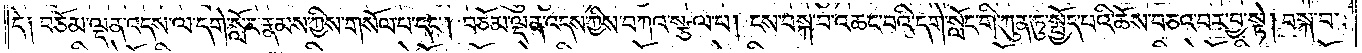དེ༑ བཅོམ་ལྡན་འདས་ལ་དགེ་སློང་རྣམས་ཀྱིས་གསོལ་པ་དང༌། བཅོམ་ལྡན་འདས་ཀྱིས་བཀའ་སྩལ་པ། ངས་བསྐ་བ་འཆང་བའི་དགེ་སློང་གི་ཀུན་ཏུ་སྤྱོད་པའི་ཆོས་བཅའ་བར་བྱ་སྟེ། བསྐ་བ་
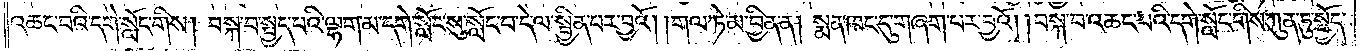འཆང་བའི་དགེ་སློང་གིས། བསྐ་བ་སྤྱད་པའི་ལྷག་མ་དགེ་སློང་སུ་སློང་བ་དེ་ལ་སྦྱིན་པར་བྱའོ། །གལ་ཏེ་མ་བྱིན་ན། སྨན་ཁང་དུ་གཞག་པར་བྱའོ། །བསྐ་བ་འཆང་བའི་དགེ་སློང་གིས་ཀུན་ཏུ་སྤྱོད་
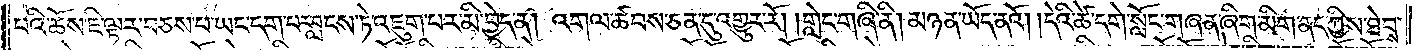པའི་ཆོས་ཇི་ལྟར་བཅས་པ་ཡང་དག་པར་བླངས་ཏེ་འཇུག་པར་མི་བྱེད་ན། འགལ་ཚབས་ཅན་དུ་འགྱུར་རོ། །གླེང་གཞི་ནི། མཉན་ཡོད་ནའོ། །དེའི་ཚེ་དགེ་སློང་གཞན་ཞིག་མིག་ནད་ཀྱིས་ཐེབས་
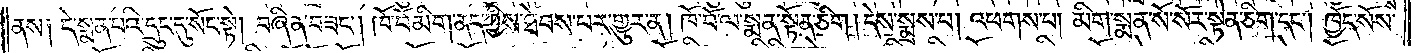ནས༏  དེ་སྨན་པའི་དྲུང་དུ་སོང་སྟེ། བཞིན་བཟང༌། ཁོ་བོ་མིག་ནད་ཀྱིས་ཐེབས་པར་གྱུར་ན། ཁོ་བོ་ལ་སྨན་སྟོན་ཅིག །དེས་སྨྲས་པ། འཕགས་པ། མིག་སྨན་སོ་སོར་སྟེན་ཅིག་དང༌། ཁྱོད་སོས་
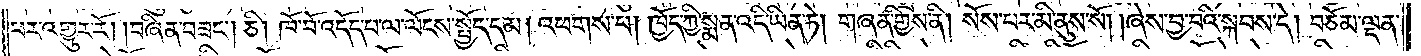པར་འགྱུར་རོ། །བཞིན་བཟང༌། ཅི། ཁོ་བོ་འདོད་པ་ལ་ལོངས་སྤྱོད་དམ། འཕགས་པ། ཁྱོད་ཀྱི་སྨན་འདི་ཡིན་ཏེ། གཞན་གྱིས་ནི། སོས་པར་མི་ནུས་སོ། །ཞེས་བྱ་བའི་སྐབས་དེ། བཅོམ་ལྡན་
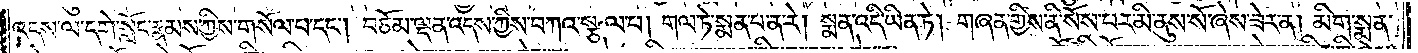འདས་ལ་དགེ་སློང་རྣམས་ཀྱིས་གསོལ་པ་དང༌། བཅོམ་ལྡན་འདས་ཀྱིས་བཀའ་སྩལ་པ། གལ་ཏེ་སྨན་པ་ན་རེ། སྨན་འདི་ཡིན་ཏེ། གཞན་གྱིས་ནི་སོས་པར་མི་ནུས་སོ་ཞེས་ཟེར་ན། མིག་སྨན་
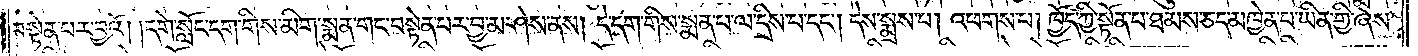བསྟེན་པར་བྱའོ། །དགེ་སློང་དག་གིས་མིག་སྨན་གང་བསྟེན་པར་བྱ་མ་ཤེས་ནས། དེ་དག་གིས་སྨན་པ་ལ་དྲིས་པ་དང༌། དེས་སྨྲས་པ། འཕགས་པ། ཁྱོད་ཀྱི་སྟོན་པ་ཐམས་ཅད་མཁྱེན་པ་ཡིན་གྱི་ཞེས་
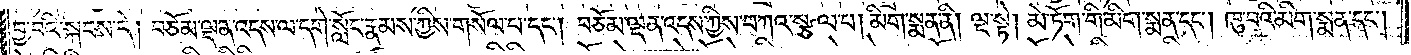བྱ་བའི་སྐབས་དེ། བཅོམ་ལྡན་འདས་ལ་དགེ་སློང་རྣམས་ཀྱིས་གསོལ་པ་དང༌། བཅོམ་ལྡན་འདས་ཀྱིས་བཀའ་སྩལ་པ། མིག་སྨན་ནི། ལྔ་སྟེ། མེ་ཏོག་གི་མིག་སྨན་དང༌། ཁུ་བའི་མིག་སྨན་དང༌།
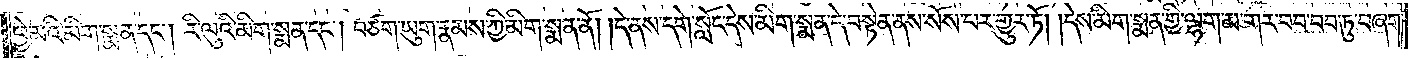ཕྱེ་མའི་མིག་སྨན་དང༌། རི་ལུའི་མིག་སྨན་དང༌། བཙག་ཡུག་རྣམས་ཀྱི་མིག་སྨན་ནོ། །དེ་ནས་དགེ་སློང་དེས་མིག་སྨན་དེ་བསྟེན་ནས་སོས་པར་གྱུར་ཏོ། །དེས་མིག་སྨན་གྱི་ལྷག་མ་གར་བབ་བབ་ཏུ་བཞག་
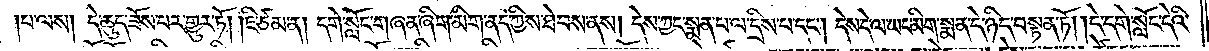པ་ལས། དེ་ཆུད་ཟོས་པར་གྱུར་ཏོ། །ཇི་ཙམ་ན། དགེ་སློང་གཞན་ཞིག་མིག་ནད་ཀྱིས་ཐེབས་ནས། དེས་ཀྱང་སྨན་པ་ལ་དྲིས་པ་དང༌། དེས་དེ་ལ་ཡང་མིག་སྨན་དེ་ཉིད་བསྟན་ཏོ། །དེ་དགེ་སློང་དེའི་
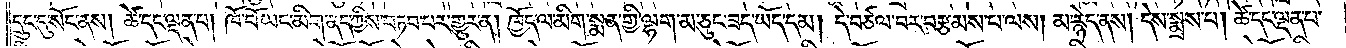དྲུང་དུ་སོང་ནས། ཚེ་དང་ལྡན་པ། ཁོ་བོ་ཡང་མིག་ནད་ཀྱིས་བཏབ་པར་གྱུར་ན། ཁྱོད་ལ་མིག་སྨན་གྱི་ལྷག་མ་ཅུང་ཟད་ཡོད་དམ། དེ་བཙལ་བར་བརྩམས་པ་ལས། མ་རྙེད་ནས། དེས་སྨྲས་པ། ཚེ་དང་ལྡན་པ་
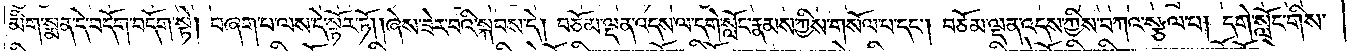མིག་སྨན་དེ་བདོག་བདོག་སྟེ། བཞག་པ་ལས་དེ་སྟོར་ཏོ། །ཞེས་ཟེར་བའི་སྐབས་དེ། བཅོམ་ལྡན་འདས་ལ་དགེ་སློང་རྣམས་ཀྱིས་གསོལ་པ་དང༌། བཅོམ་ལྡན་འདས་ཀྱིས་བཀའ་སྩལ་པ། དགེ་སློང་གིས་
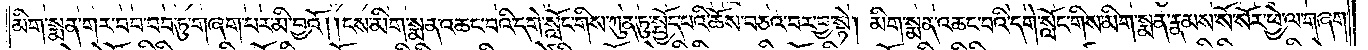མིག་སྨན་གར་བབ་བབ་ཏུ་གཞག་པར་མི་བྱའོ། །ངས་མིག་སྨན་འཆང་བའི་དགེ་སློང་གིས་ཀུན་ཏུ་སྤྱོད་པའི་ཆོས་བཅའ་བར་བྱ་སྟེ། མིག་སྨན་འཆང་བའི་དགེ་སློང་གིས་མིག་སྨན་རྣམས་སོ་སོར་ཕྱེ་ལ་གཞག་
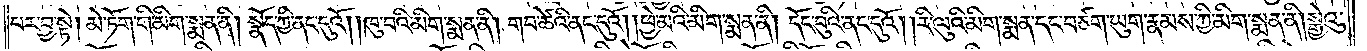པར་བྱ་སྟེ། མེ་ཏོག་གི་མིག་སྨན་ནི། སྣོད་ཀྱི་ནང་དུའོ། །ཁུ་བའི་མིག་སྨན་ནི། གབ་ཚེའི་ནང་དུའོ། །ཕྱེ་མའི་མིག་སྨན་ནི། དོང་བུའི་ནང་དུའོ། །རི་ལུའི་མིག་སྨན་དང་བཙག་ཡུག་རྣམས་ཀྱི་མིག་སྨན་ནི། སྒྱེའུ་
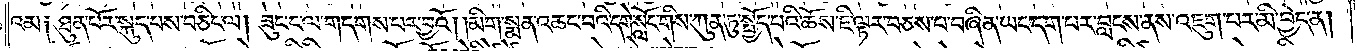འམ༑  ཐུན་པོར་སྐུད་པས་བཅིང་ལ། ཟུང་ང་ལ་གདགས་པར་བྱའོ། །མིག་སྨན་འཆང་བའི་དགེ་སློང་གིས་ཀུན་ཏུ་སྤྱོད་པའི་ཆོས་ཇི་ལྟར་བཅས་པ་བཞིན་ཡང་དག་པར་བླངས་ནས་འཇུག་པར་མི་བྱེད་ན།
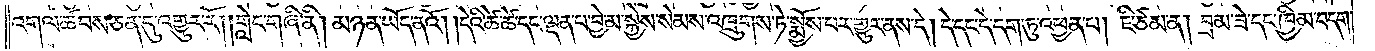འགལ་ཚབས་ཅན་དུ་འགྱུར་རོ། །གླེང་གཞི་ནི། མཉན་ཡོད་ནའོ། །དེའི་ཚེ་ཚེ་དང་ལྡན་པ་བྱེ་མ་སྐྱེས་སེམས་འཁྲུགས་ཏེ་སྨྱོས་པར་གྱུར་ནས་དེ། དེ་དང་དེ་དག་ཏུ་འཕྱན་པ། ཇི་ཙམ་ན། བྲམ་ཟེ་དང་ཁྱིམ་བདག་
